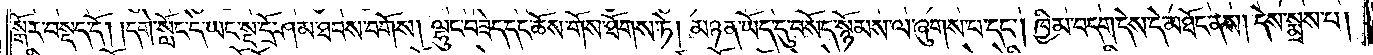སྒོར་བསྡད་དོ། །དགེ་སློང་དེ་ཡང་སྔ་དྲོ་ཤམ་ཐབས་བགོས། ལྷུང་བཟེད་དང་ཆོས་གོས་ཐོགས་ཏེ། མཉན་ཡོད་དུ་བསོད་སྙོམས་ལ་ཞུགས་པ་དང༌། ཁྱིམ་བདག་དེས་དེ་མཐོང་ནས། དེས་སྨྲས་པ།
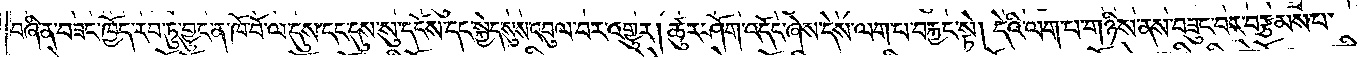བཞིན་བཟང་ཁྱོད་རབ་ཏུ་བྱུང་ན་ཁོ་བོ་ལ་དུས་དང་དུས་སུ་དངོས་དང་སྐྱེད་སུས་འབུལ་བར་འགྱུར། ཚུར་ཤོག་འདོང་ཞེས་དེས་ལག་པ་བརྐྱང་སྟེ། དེའི་ལག་པ་གཉིས་ནས་བཟུང་བར་བརྩམས་པ་
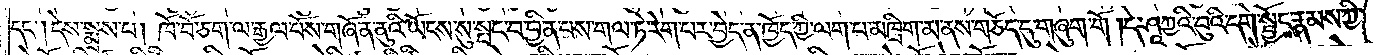དང༌། དེས་སྨྲས་པ། ཁོ་བོ་ཅག་ལ་རྒྱལ་པོས་གཞོན་ནུའི་ཡོངས་སུ་སྤང་བ་བྱིན་པས་གལ་ཏེ་རེག་པར་བྱེད་ན་ཁྱོད་ཀྱི་ལག་པ་མཁྲིག་མ་ནས་གཅོད་དུ་གཞུག་གོ །དེ་ཤཱཀྱའི་བུའི་དགེ་སྦྱོང་རྣམས་ཀྱི་
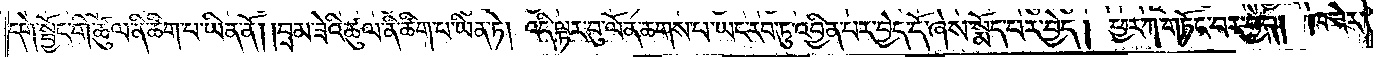དགེ་སྦྱོང་གི་ཚུལ་ནི་ཚིག་པ་ཡིན་ནོ། །བྲམ་ཟེའི་ཚུལ་ནི་ཚིག་པ་ཡིན་ཏེ། འདི་ལྟར་བུ་ལོན་ཆགས་པ་ཡང་རབ་ཏུ་འབྱིན་པར་བྱེད་དོ་ཞེས་སྨོད་པར་བྱེད། ཕྱར་ཀ་གཏོང་བར་བྱེད། ཁ་ཟེར་
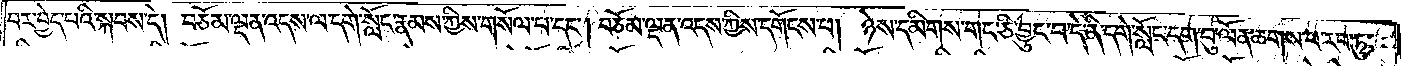བར་བྱེད་པའི་སྐབས་དེ། བཅོམ་ལྡན་འདས་ལ་དགེ་སློང་རྣམས་ཀྱིས་གསོལ་པ་དང༌། བཅོམ་ལྡན་འདས་ཀྱིས་དགོངས་པ། ཉེས་དམིགས་གང་ཅི་བྱུང་བ་དེ་ནི་དགེ་སློང་དག་བུ་ལོན་ཆགས་པ་རབ་ཏུ་
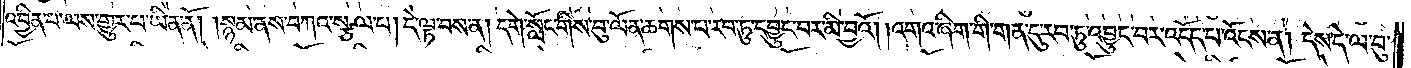འབྱིན་པ་ལས་གྱུར་པ་ཡིན་ནོ། །སྙམ་ནས་བཀའ་སྩལ་པ། དེ་ལྟ་བས་ན། དགེ་སློང་གིས་བུ་ལོན་ཆགས་པ་རབ་ཏུ་དབྱུང་བར་མི་བྱའོ། །འགའ་ཞིག་གི་གན་དུ་རབ་ཏུ་འབྱུང་བར་འདོད་པ་འོངས་ན། དེས་དེ་ལ་བུ་
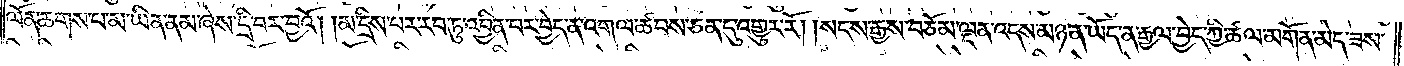ལོན་ཆགས་པ་མ་ཡིན་ནམ་ཞེས་དྲི་བར་བྱའོ། །མ་དྲིས་པར་རབ་ཏུ་འབྱིན་བར་བྱེད་ན་འགལ་ཚབས་ཅན་དུ་འགྱུར་རོ། །སངས་རྒྱས་བཅོམ་ལྡན་འདས་མཉན་ཡོད་ན་རྒྱལ་བྱེད་ཀྱི་ཚལ་མགོན་མེད་ཟས་
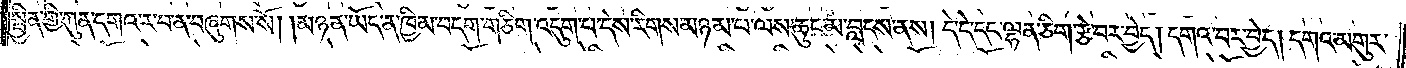སྦྱིན་གྱི་ཀུན་དགའ་ར་བ་ན་བཞུགས་སོ། །མཉན་ཡོད་ན་ཁྱིམ་བདག་གཅིག་འདུག་པ་དེས་རིགས་མཉམ་པ་ལས་ཆུང་མ་བླངས་ནས། དེ་དེ་དང་ལྷན་ཅིག་རྩེ་བར་བྱེད། དགའ་བར་བྱེད། དགའ་མགུར་
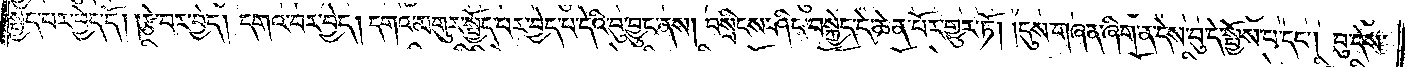སྤྱད་པར་བྱེད་དོ། །རྩེ་བར་བྱེད། དགའ་བར་བྱེད། དགའ་མགུར་སྤྱོད་པར་བྱེད་པ་དེའི་བུ་བྱུང་ནས། བསྲིངས་ཤིང་བསྐྱེད་དེ་ཆེན་པོར་གྱུར་ཏོ། །དུས་གཞན་ཞིག་ན་དེས་བུ་དེ་སྤྱོས་པ་དང༌། བུ་དེས་
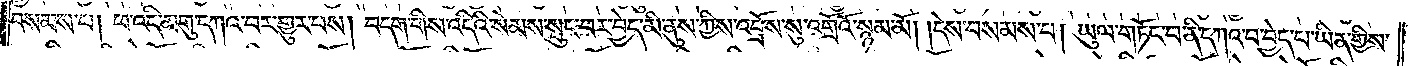བསམས་པ། ཕ་འདི་མགུ་དཀའ་བར་གྱུར་པས། བདག་གིས་འདིའི་སེམས་སྲུང་བར་བྱེད་མི་ནུས་ཀྱིས་འབྲོས་སུ་འགྲོའོ་སྙམ་མོ། །དེས་བསམས་པ། ཡུལ་གཏོང་བ་ནི་དཀའ་བ་བྱེད་པ་ཡིན་གྱིས་
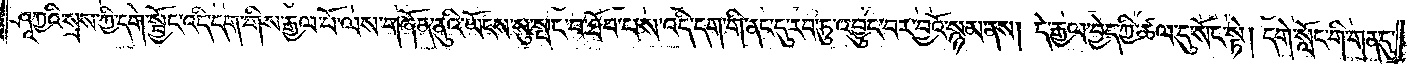ཤཱཀྱའི་སྲས་ཀྱི་དགེ་སྦྱོང་འདི་དག་གིས་རྒྱལ་པོ་ལས་གཞོན་ནུའི་ཡོངས་སུ་སྤང་བ་ཐོབ་པས་འདི་དག་གི་ནང་དུ་རབ་ཏུ་འབྱུང་བར་བྱའོ་སྙམ་ནས། དེ་རྒྱལ་བྱེད་ཀྱི་ཚལ་དུ་སོང་སྟེ། དགེ་སློང་གི་གན་དུ་
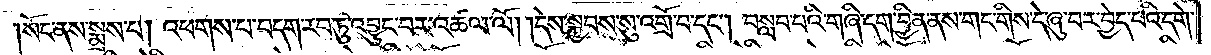སོང་ནས་སྨྲས་པ། འཕགས་པ་བདག་རབ་ཏུ་འབྱུང་པར་འཚལ་ལོ། །དེས་སྐྱབས་སུ་འགྲོ་བ་དང༌། བསླབ་པའི་གཞི་དག་བྱིན་ནས་གང་གིས་དེ་ཞུ་བར་བྱེད་པའི་དགེ་
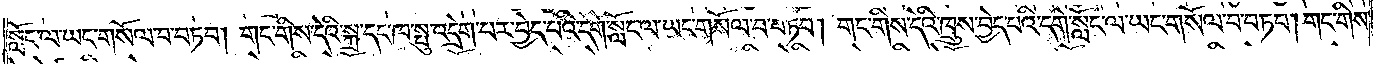སློང་ལ་ཡང་གསོལ་བ་བཏབ། གང་གིས་དེའི་སྐྲ་དང་ཁ་སྤུ་འདྲེག་པར་བྱེད་པའི་དགེ་སློང་ལ་ཡང་གསོལ་བ་བཏབ། གང་གིས་དེའི་ཁྲུས་བྱེད་པའི་དགེ་སློང་ལ་ཡང་གསོལ་བ་བཏབ། གང་གིས་
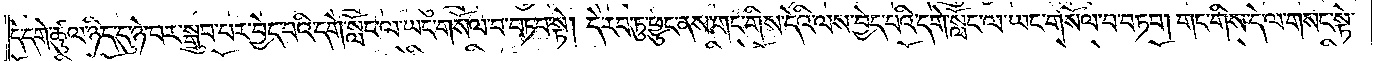དེ་དགེ་ཚུལ་ཉིད་དུ་ཉེ་བར་སྒྲུབ་པར་བྱེད་པའི་དགེ་སློང་ལ་ཡང་གསོལ་བ་བཏབ་སྟེ། དེ་རབ་ཏུ་ཕྱུང་ནས་གང་གིས་དེའི་ལས་བྱེད་པའི་དགེ་སློང་ལ་ཡང་གསོལ་བ་བཏབ། གང་གིས་དེ་ལ་གསང་སྟེ་
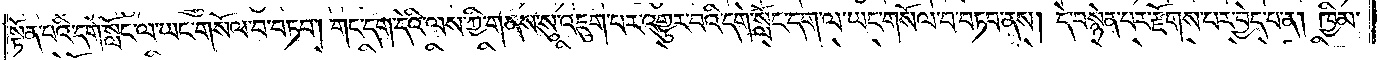སྟོན་པའི་དགེ་སློང་ལ་ཡང་གསོལ་བ་བཏབ། གང་དག་དེའི་ལས་ཀྱི་གནས་སུ་འཇུག་པར་འགྱུར་བའི་དགེ་སློང་དག་ལ་ཡང་གསོལ་བ་བཏབ་ནས། དེ་བསྙེན་པར་རྫོགས་པར་བྱེད་པ་ན། ཁྱིམ་
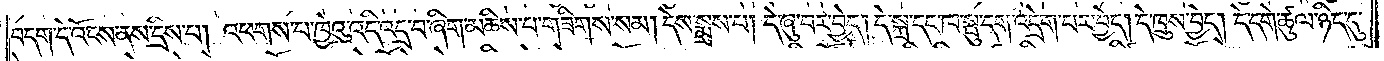བདག་དེ་འོངས་ནས་དྲིས་པ། འཕགས་པ་ཁྱེའུ་འདི་འདྲ་བ་ཞིག་མཆིས་པ་གཟིགས་སམ། དེས་སྨྲས་པ། དེ་ཞུ་བར་བྱེད། དེ་སྐྲ་དང་ཁ་སྤུ་དག་འདྲེག་པར་བྱེད། དེ་ཁྲུས་བྱེད། དེ་དགེ་ཚུལ་ཉིད་དུ་
